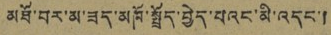མཐོ་བར་མ་ཟད་མཁོ་སྤྲོད་བྱེད་པའང་མི་འདང་།
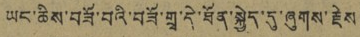ཡང་ཆིས་བཟོ་བའི་བཟོ་གྲྭ་དེ་ཐོན་སྐྱེད་དུ་ཞུགས་རྗེས
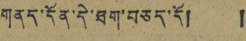གནད་དོན་དེ་ཐག་བཅད་དོ། །
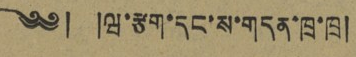༄༅། །ཝ་རྩག་དང་ས་གདན་ཁྲ་ཁྲ།
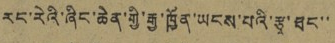རང་རེའི་ཞིང་ཆེན་གྱི་རྒྱ་ཁྱོན་ཡངས་པའི་རྩྭ་ཐང་་
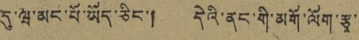དུ་ཝ་མང་པོ་ཡོད་ཅིང་། དེའི་ནང་གི་མགོ་ལོག་རྩྭ་
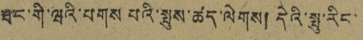ཐང་གི་ཝའི་པགས པའི་སྤུས་ཚད་ལེགས། དེའི་སྤུ་རིང་
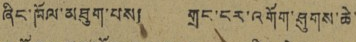ཞིང་ཁོལ་མཐུག་པས། གྲང་ངར་འགོག་ཤུགས་ཆེ་
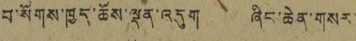བ་སོགས་ཁྱད་ཆོས་ལྡན་འདུག ཞིང་ཆེན་གསར་
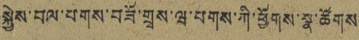སྐྱེས་བལ་བགས་བཟོ་གྲྭས་ཝ་བགས་ཀི་ཕྱོགས་སྣ་ཚོགས
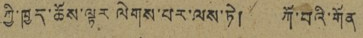ཀྱི་ཁྱད་ཆོས་ལྟར་ལེགས་པར་ལས་ཏེ། ཀོ་བའི་གོན
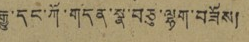རྒྱུ་དང་ཀོ་གདན་སྣ་བཅུ་ལྷག་བཟོས།
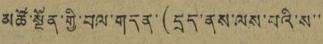མཚོ་སྔོན་གྱི་བལ་གདན་(དྲད་ནས་ལས་པའི་ས་་
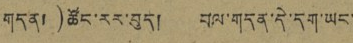གདན།)ཚོང་རར་བུད། བལ་གདན་དེ་དག་ཡང་
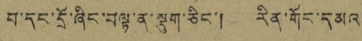བ་དང་དྲོ་ཞིང་བལྟ་ན་སྡུག་ཅིང་། རིན་གོང་དམའ
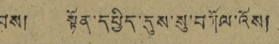བས། སྟོན་དཔྱིད་དུས་སུ་བཀོལ་འོས།
